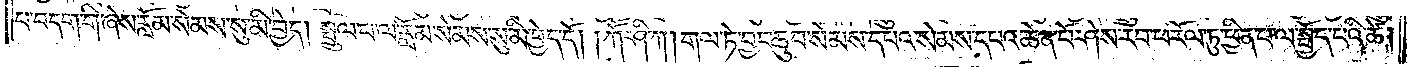པ་བདག་གི་ཞེས་རློམ་སེམས་སུ་མི་བྱེད། སྤྲུལ་པ་ལ་རློམ་སེམས་སུ་མི་བྱེད་དོ། །ཀཽ་ཤི་ཀ། གལ་ཏེ་བྱང་ཆུབ་སེམས་དཔའ་སེམས་དཔའ་ཆེན་པོ་ཤེས་རབ་ཀྱི་ཕ་རོལ་ཏུ་ཕྱིན་པ་ལ་སྤྱོད་པའི་ཚེ།
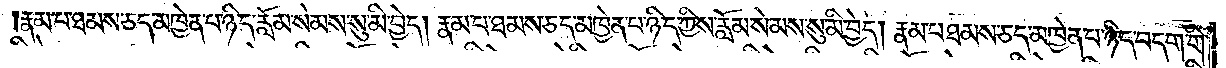རྣམ་པ་ཐམས་ཅད་མཁྱེན་པ་ཉིད་རློམ་སེམས་སུ་མི་བྱེད། རྣམ་པ་ཐམས་ཅད་མཁྱེན་པ་ཉིད་ཀྱིས་རློམ་སེམས་སུ་མི་བྱེད། རྣམ་པ་ཐམས་ཅད་མཁྱེན་པ་བདག་གི་
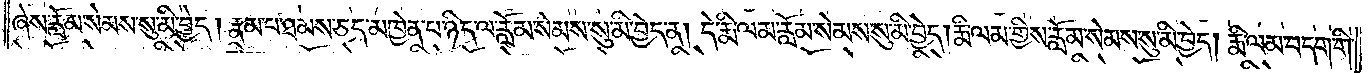ཞེས་རློམ་སེམས་སུ་མི་བྱེད། རྣམ་པ་ཐམས་ཅད་མཁྱེན་པ་ཉིད་ལ་རློམ་སེམས་སུ་མི་བྱེད་ན། དེ་རྨི་ལམ་རློམ་སེམས་སུ་མི་བྱེད། རྨི་ལམ་གྱིས་རློམ་སེམས་སུ་མི་བྱེད། རྨི་ལམ་བདག་གི་
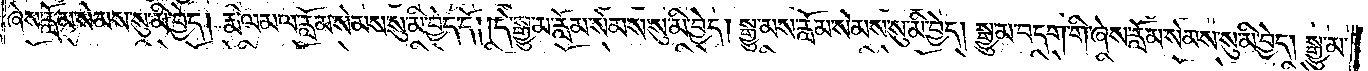ཞེས་རློམ་སེམས་སུ་མི་བྱེད། རྨི་ལམ་ལ་རློམ་སེམས་སུ་མི་བྱེད་དོ། །དེ་སྒྱུ་མ་རློམ་སེམས་སུ་མི་བྱེད། སྒྱུ་མས་རློམ་སེམས་སུ་མི་བྱེད། སྒྱུ་མ་བདག་གི་ཞེས་རློམ་སེམས་སུ་མི་བྱེད། སྒྱུ་མ་
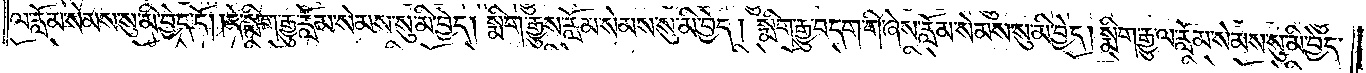ལ་རློམ་སེམས་སུ་མི་བྱེད་དོ། །དེ་སྨིག་རྒྱུ་རློམ་སེམས་སུ་མི་བྱེད། སྨིག་རྒྱུས་རློམ་སེམས་སུ་མི་བྱེད། སྨིག་རྒྱུ་བདག་གི་ཞེས་རློམ་སེམས་སུ་མི་བྱེད། སྨིག་རྒྱུ་ལ་རློམ་སེམས་སུ་མི་བྱེད་
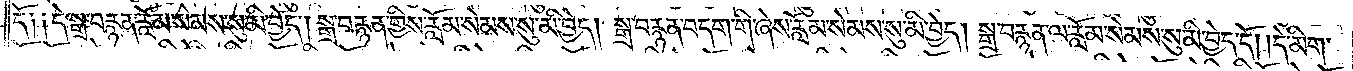དོ༑ ༑དེ་སྒྲ་བརྙན་རློམ་སེམས་སུ་མི་བྱེད། སྒྲ་བརྙན་གྱིས་རློམ་སེམས་སུ་མི་བྱེད། སྒྲ་བརྙན་བདག་གི་ཞེས་རློམ་སེམས་སུ་མི་བྱེད། སྒྲ་བརྙན་ལ་རློམ་སེམས་སུ་མི་བྱེད་དོ། །དེ་མིག་
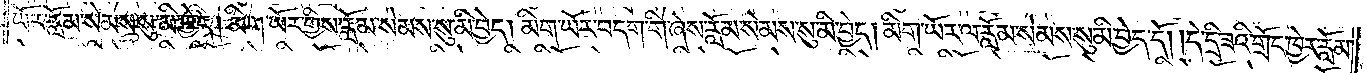ཡོར་རློམ་སེམས་སུ་མི་བྱེད། མིག་ཡོར་གྱིས་རློམ་སེམས་སུ་མི་བྱེད། མིག་ཡོར་བདག་གི་ཞེས་རློམ་སེམས་སུ་མི་བྱེད། མིག་ཡོར་ལ་རློམ་སེམས་སུ་མི་བྱེད་དོ། །དེ་དྲི་ཟའི་གྲོང་ཁྱེར་རློམ་
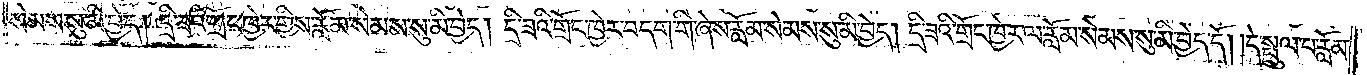སེམས་སུ་མི་བྱེད། དྲི་ཟའི་གྲོང་ཁྱེར་གྱིས་རློམ་སེམས་སུ་མི་བྱེད། དྲི་ཟའི་གྲོང་ཁྱེར་བདག་གི་ཞེས་རློམ་སེམས་སུ་མི་བྱེད། དྲི་ཟའི་གྲོང་ཁྱེར་ལ་རློམ་སེམས་སུ་མི་བྱེད་དོ། །དེ་སྤྲུལ་པ་རློམ་
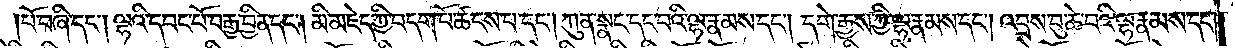པོ་བཞི་དང༌། ལྷའི་དབང་པོ་བརྒྱ་བྱིན་དང༌། མི་མཇེད་ཀྱི་བདག་པོ་ཚངས་པ་དང༌། ཀུན་སྣང་དང་བའི་ལྷ་རྣམས་དང༌། དགེ་རྒྱས་ཀྱི་ལྷ་རྣམས་དང༌། འབྲས་བུ་ཆེ་བའི་ལྷ་རྣམས་དང༌།
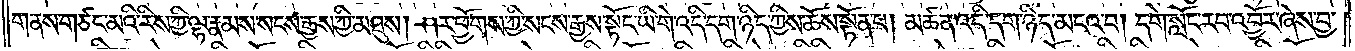གནས་གཙང་མའི་རིས་ཀྱི་ལྷ་རྣམས་སངས་རྒྱས་ཀྱི་མཐུས། ཤར་ཕྱོགས་ཀྱི་སངས་རྒྱས་སྟོང་ཡི་གེ་འདི་དག་ཉིད་ཀྱིས་ཆོས་སྟོན་པ། མཚན་འདི་དག་ཉིད་མངའ་བ། དགེ་སློང་རང་འབྱོར་ཞེས་བྱ་
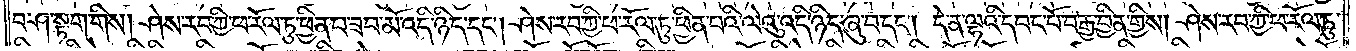བ་ཤ་སྟག་གིས། ཤེས་རབ་ཀྱི་ཕ་རོལ་ཏུ་ཕྱིན་པ་ཟབ་མོ་འདི་ཉིད་དང༌། ཤེས་རབ་ཀྱི་ཕ་རོལ་ཏུ་ཕྱིན་པའི་ལེའུ་འདི་ཉིད་ཞུ་བ་དང༌། དེ་ན་ལྷའི་དབང་པོ་བརྒྱ་བྱིན་གྱིས། ཤེས་རབ་ཀྱི་ཕ་རོལ་ཏུ་
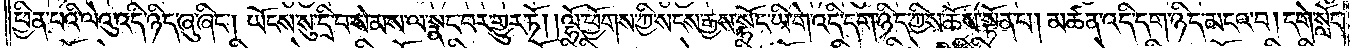ཕྱིན་པའི་ལེའུ་འདི་ཉིད་ཞུ་ཞིང༌། ཡོངས་སུ་དྲི་བ་སེམས་ལ་སྣང་བར་གྱུར་ཏོ། །ལྷོ་ཕྱོགས་ཀྱིས་སངས་རྒྱས་སྟོང་ཡི་གེ་འདི་དག་ཉིད་ཀྱིས་ཆོས་སྟོན་པ། མཚན་འདི་དག་ཉིད་མངའ་བ། དགེ་སློང་
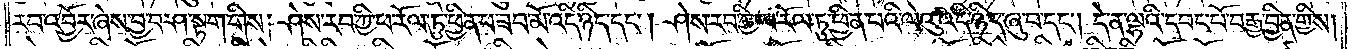རབ་འབྱོར་ཞེས་བྱ་བ་ཤ་སྟག་གིས། ཤེས་རབ་ཀྱི་ཕ་རོལ་ཏུ་ཕྱིན་པ་ཟབ་མོ་འདི་ཉིད་དང༌། ཤེས་རབ་ཀྱི་ཕ་རོལ་ཏུ་ཕྱིན་པའི་ལེའུ་འདི་ཉིད་ཞུ་བ་དང༌། དེ་ན་ལྷའི་དབང་པོ་བརྒྱ་བྱིན་གྱིས།
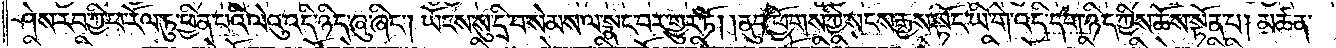ཤེས་རབ་ཀྱི་ཕ་རོལ་ཏུ་ཕྱིན་པའི་ལེའུ་འདི་ཉིད་ཞུ་ཞིང༌། ཡོངས་སུ་དྲི་བ་སེམས་ལ་སྣང་བར་གྱུར་ཏོ། །ནུབ་ཕྱོགས་ཀྱི་སངས་རྒྱས་སྟོང་ཡི་གེ་འདི་དག་ཉིད་ཀྱིས་ཆོས་སྟོན་པ། མཚན་
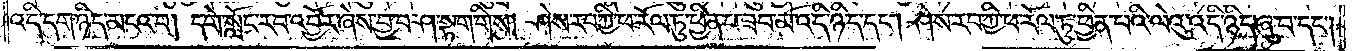འདི་དག་ཉིད་མངའ་བ། དགེ་སློང་རབ་འབྱོར་ཞེས་བྱ་བ་ཤ་སྟག་གིས། ཤེས་རབ་ཀྱི་ཕ་རོལ་ཏུ་ཕྱིན་པ་ཟབ་མོ་འདི་ཉིད་དང༌། ཤེས་རབ་ཀྱི་ཕ་རོལ་ཏུ་ཕྱིན་པའི་ལེའུ་འདི་ཉིད་ཞུ་བ་དང༌།
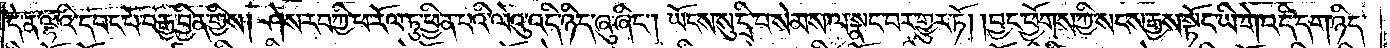དེ་ན་ལྷའི་དབང་པོ་བརྒྱ་བྱིན་གྱིས། ཤེས་རབ་ཀྱི་ཕ་རོལ་ཏུ་ཕྱིན་པའི་ལེའུ་འདི་ཉིད་ཞུ་ཞིང༌། ཡོངས་སུ་དྲི་བ་སེམས་ལ་སྣང་བར་གྱུར་ཏོ། །བྱང་ཕྱོགས་ཀྱི་སངས་རྒྱས་སྟོང་ཡི་གེ་འདི་དག་ཉིད་
